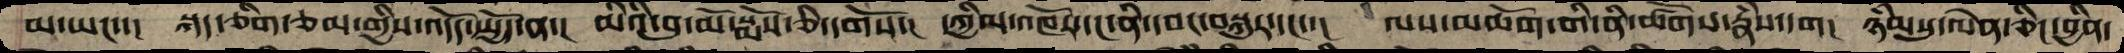མ་ཡང་་།  སྐད་ཅིག་ཅམ་གྱིས་འདོད་སྤྱོད་ན་།  མིའི་བུ་མོ་སྨོས་ཅི་དགོས་།  དཀྱིལ་འཁོར་དང་ནི་དབང་བསྐུར་དང་་།   ལས་མཆོག་གི་ནི་ཚོགས་རྣཾས་དག།  ཉཾམསུ་ལེན་ཅིང་བྱིན་
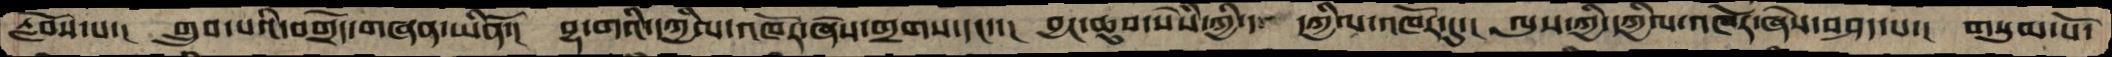རློབས་པ་།  གྲུབ་པའི་བགྲོད་གཞན་ཡིནོ་།  བྷ་གའི་དཀྱིལ་འཁོར་ཞེས་གྲགས་དང་་།  བྱང་ཆུབ་སེསཾ་ཀྱི་  དཀྱིལ་འཁོར་དུ་།  ལུས་ཀྱི་དཀྱིལ་འཁོར་ཞེས་བཤད་པ་།  གསུམ་པོ་
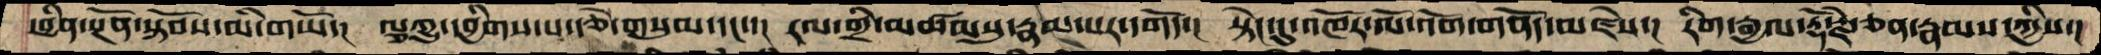་བྱིན་སྔོན་སྟོབས་མི་གཡོ་།  ལྕཀྱུ་དབྱིགས་པ་རྩེ་གསུམ་དང་་།  རལ་གྲི་མཚམསུ་རྣམ་པར་དགོད་།   སྟེང་དུ་འཁོར་ལོ་འོག་གནོད་མཛེས་།  རིག་རྒྱལ་རྡོ་རྗེ་ཅན་རྣམས་ཀྱིས་།
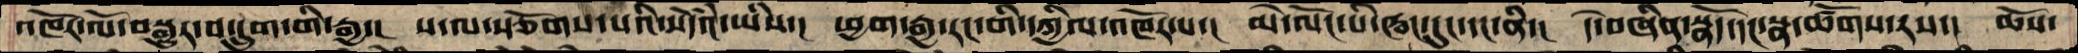འཁོར་ལོ་བསྒྱུར་བ་དྲུག་གི་རྒྱ་།  ས་ལ་སྩོགས་པའི་སེདཾའ་ཡིས་།  ཕྱག་རྒྱ་རང་གི་དཀྱིལ་འཁོར་པ་།   མེ་ལོང་པི་ཝང་དུང་དང་ནི་།  དེ་བཞིན་སྣོད་དང་སྣ་ཚོགས་རས་།  ཆོས་
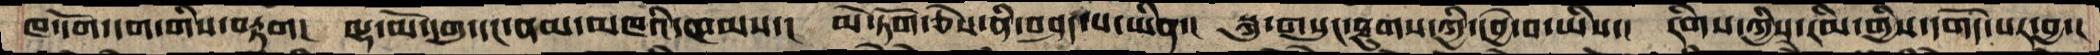ཁ་དོག་དག་གིས་བརྟག།  ལྷ་མོ་དགུ་དང་ནམ་མཁའི་ཁམས་།  མེ་ཏོག་ཅེས་ནི་བཤད་པ་ཡིན་།  སྐུ་གསུང་ཐུགས་ཀྱི་དབྱེ་བ་ཡིས་།  རིགས་ཀྱིས་རིམ་གྱིས་དགོད་པར་བྱ་།
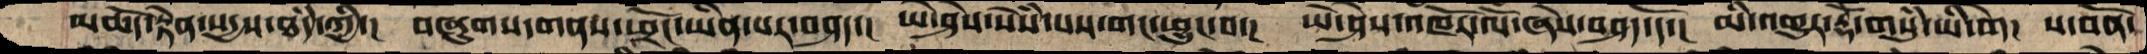མཆོད་རྟེན་སདྱས་ཐཾད་ཀྱི་།  བཞུགས་གནས་ཕྲོང་ཡིན་པར་བཤད་།  ཡེ་ཤེས་སེཾས་པས་གང་ཕྱུང་བ་།  ཡེ་ཤེས་འཁོར་ལོ་ཞེས་བཤད་དོ་།  མི་འགྱུར་རྡོེ་གསུཾ་ཡི་གེ།  ས་བོན་
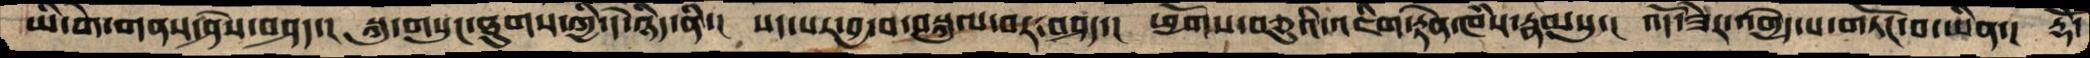ཡི་གེ་གནས་ཤེས་བཤད་།  སྐུ་གསུང་ཐུགས་ཀྱི་དེ་ཉིད་ནི་།  སད་པར་བྱ་བ་བསྐུལ་བར་བཤད་།  ཕྱོགས་བཅུའི་འཇིག་རྟེན་ཁཾས་རྣམསུ་།  འོད་ཟེར་འགྱེད་པ་གཏོང་བ་ཡིན་།  རྡོེ་
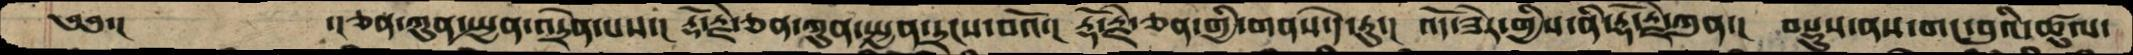༄༅་།     ་།ཅན་ཀུན་སྤྱན་འདྲེན་པས་།  རྡོ་རྗེ་ཅན་ཀུན་སྤྱན་དྲངས་བའོ་།  རྡོ་རྗེ་ཅན་གྱི་གནས་དེ་རུ་།  འོད་ཟེར་གྱིས་ནི་རྡོ་རྗེ་ཀུན་།  བསྡུས་ནས་གང་བུའི་ཚུལ་
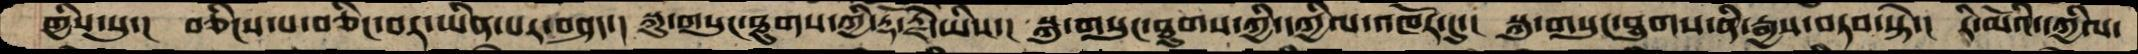གྱིས་སུ་།   བཅིངས་པ་བཅིང་བར་ཡིན་པར་བཤད་།  སྐུགསུང་ཐུགས་ཀྱི་རྡོ་རྗེ་ཡིས་།  སྐུ་གསུང་ཐུགས་ཀྱི་དཀྱིལ་འཁོར་དུ་།  སྐུ་གསུང་ཐུགས་ནི་རྒྱས་བཏབ་ཏེ་།  རི་མོའི་དཀྱིལ་
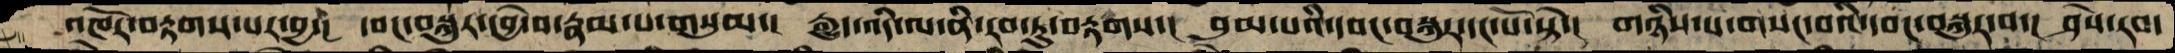འཁོར་བརྟགས་པར་བྱ་།  དབང་བསྐུར་དབྱེ་བ་རྣམ་པ་གསུམ་།  རྒྱུད་འདི་ལ་ནི་རབ་ཏུ་བརྟགས་།  བུམ་པའི་དབང་བསྐུར་དང་པོ་སྟེ་།  གཉིས་པ་གསང་བའི་དབང་བསྐུར་བ་།  ཤེས་རབ་
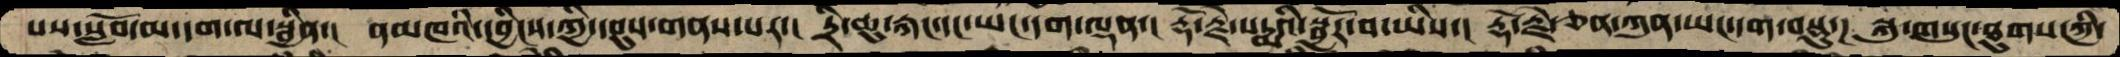པས་སློབ་མ་དག་ལ་སྦྱིན་།  ནམཁའི་དབྱིངས་ཀྱི་དབུས་གནས་པར་།  དྲི་ཆུ་རྐང་དང་ཡང་དག་ལྡན་།  རྡོ་རྗེ་པདྨའི་སྦྱོར་བ་ཡིས་།  རྡོ་རྗེ་ཅན་ཀུན་ཡང་དག་བསྡུ་།  སྐུ་གསུང་ཐུགས་ཀྱི་
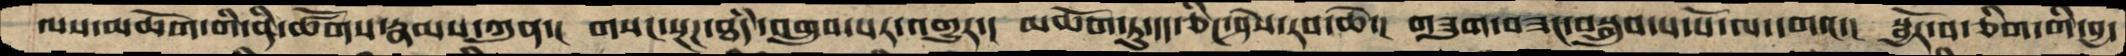ལས་མཆོག་གི་ནི་ཚོགས་རྣམས་ཀུན་།  གསང་སྔཌ་ཐཾད་འགྲུབ་པར་འགྱུར་།  མཆོག་ཏུ་དད་ཅིང་ཤེས་རབ་ཆེ་།  གཟུག་བཟང་བསྒྲུབ་པ་པོ་ལ་དགའ་།  སྦྱོར་བ་ཅིག་གི་བྱ་
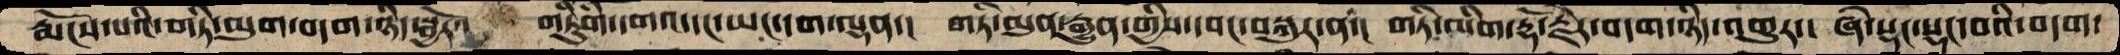རྨོངས་པའི་གཏི་མུག་བདག་ཉིད་སྦྱོར་།   གཏིུཾག་དགའ་དང་ཡང་དག་ལྡན་།  གཏི་མུན་རྒྱུན་གྱིས་དབང་བསྐུར་ན་།  གཏི་མིག་རྡོ་རྗེར་བདག་ཉིད་འགྱུར་། ཞེ་སྡང་སྡང་བའི་བདག་
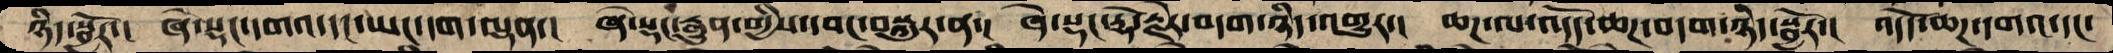ཉིད་སྦྱོར་།  ཞེ་སྡང་དགའ་དང་ཡང་དག་ལྡན་།  ཞེ་སྡང་རྒྱུན་གྱིས་དབང་བསྐུར་ན་།  ཞེ་སྡང་རྡོ་རྗེར་བདག་ཉིད་འགྱུར་།  ཆཌ་ལ་འདོད་ཆཌ་བདག་ཉིད་སྦྱོར་།  འདདོད་ཆཌ་དགའ་དང་
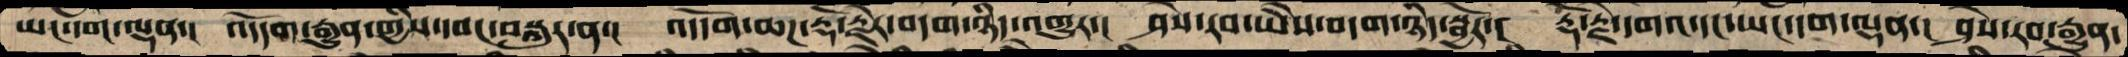ཡང་དག་ལྡན་།  འདོདག་རྒྱུན་གྱིས་དབང་བསྐུར་ན་།  འདོདག་ཆཌ་རྡོ་རྗེར་བདག་ཉིད་འགྱུར་།  ཤེས་རབ་ཡཻས་བདག་ཉིད་སྦྱོར་།  རྡོ་རྗེ་དགའ་དང་ཡང་དག་ལྡན་།  ཤེས་རབ་རྒྱུན་
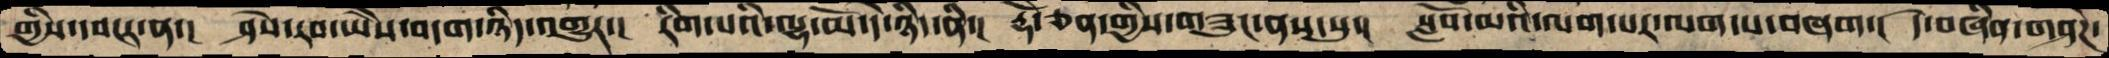གྱིས་དབངར་ན་།  ཤེས་རབ་ཡཻས་བདག་ཉིད་འགྱུར་།  རིག་པའི་ལྷ་མོ་དེ་ཉིད་ནི་།  རྡོེ་ཅན་གྱིས་གཟུང་ནས་སུ་།  སློབ་མའི་ལག་པར་ལག་པ་བཞག་།  དེ་བཞིན་གཤེཌ་
